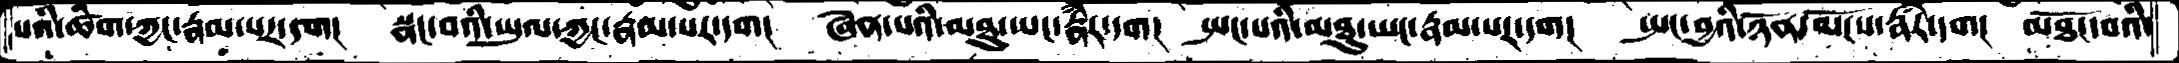པའི་ཚིག་ཀྱང་རྣམ་པར་དག།  སྣང་བའི་ཡུལ་ཀྱང་རྣམ་པར་དག། ཞེན་པའི་མཐུ་ཡང་རྣཾར་དག།  སྤང་པའི་མཐུ་ཡང་རྣམ་པར་དག།  སྤང་བྱའི་ཉོན་མོངས་རྣཾར་དག། མཐོང་བའི་
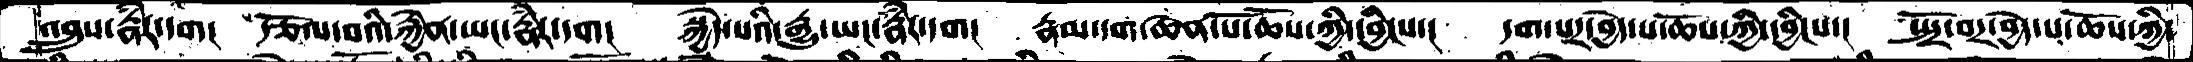འབྲུས་རྣཾར་དག།  རྩོལ་བའི་རྐྱེན་ཡང་རྣཾར་དག།  སྐྱེད་པའི་རྒྱུ་ཡང་རྣཾར་དག།  རྣམ་དག་ཆེན་པོ་ཆོས་ཀྱི་དབྱིངས་།  དག་པར་བྱེད་པ་ཆོས་ཀྱི་དབྱིངས་།  སྤྲོ་བར་བྱེད་པ་ཆོས་ཀྱི་
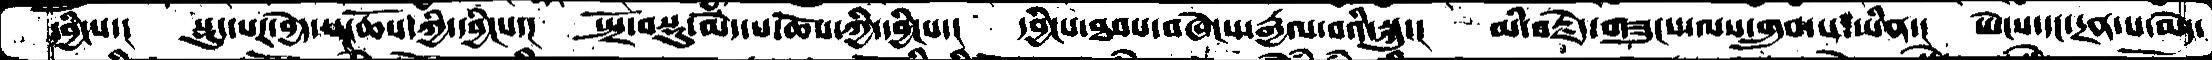དབྱིངས་།  སྡུད་པར་བྱེད་པ་ཆོས་ཀྱི་དབྱིངས་།  སྤྲོ་བསྡུ་མེད་པ་ཆོས་ཀྱི་དབྱིངས་།  དབྱིངས་ཐབས་བཞེངས་རྒྱལ་བའི་སྐུ་།  མི་བརྗོད་གཟུངས་ལས་གྲུབ་པ་ཡིན་།  ཡེངས་དང་དྲན་པ་མེད་
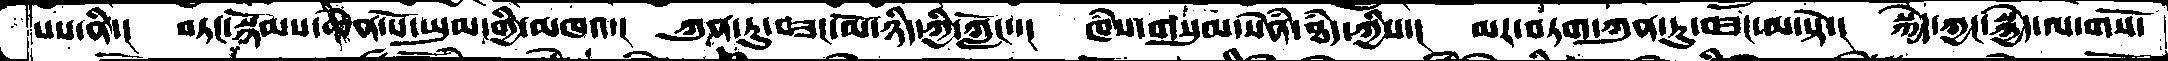པས་ནི་།  བཏང་སྙོམས་ཆེན་པོ་ཡུམ་གྱི་མཁའ་།  ཀུན་ཏུ་བཟང་མོ་ཉིད་ཀྱི་ཀློང་་།  ཁཾས་གསུམ་སེཾན་ཐཾད་ཀྱིས་།  མར་བཏག་ཀུན་ཏུ་བཟང་ལ་སྟེ་།  སྐྱེད་ཀྱང་སྐྱེད་ལ་གསོ་
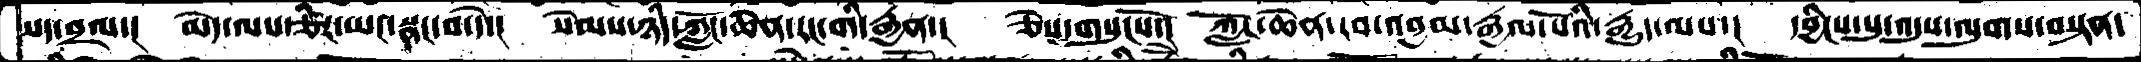སད་བྲལ་།  མེད་ལས་ཅིར་ཡང་སྣང་བ་དེ་།  སེམས་ཉིད་ཀློང་ཆེན་རང་གི་རྒྱན་།  ཅེས་གསུངསོ་།  ཀློང་ཆེན་རབ་འབྱམ་རྒྱལ་པོའི་རྒྱུད་ལས་།  དབྱིངས་སུ་འདུས་ལུགས་བསྟན་
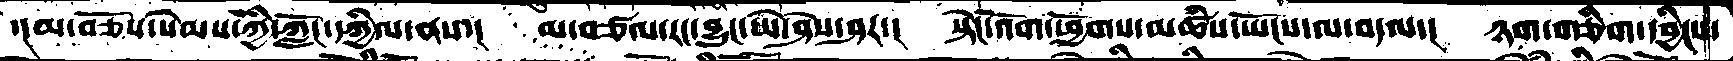་།མ་བཅོས་སེམས་ཀྱི་ཀློང་དཀྱིལ་ནས་།  མ་བཙལ་རང་བྱུང་ཡེ་ཤེས་ཤར་།  སྟེང་འོག་ཕྱོགས་མཚཾས་ཡོངས་ལ་བདལ་།  ཉག་གཅིག་དབྱིངས་
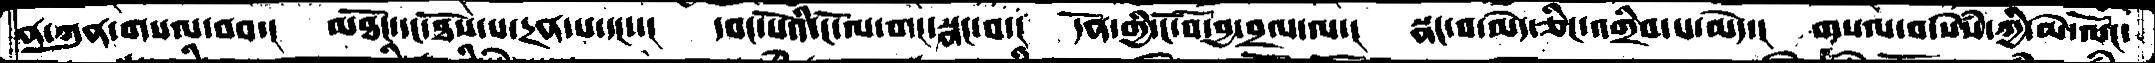ན་ཀུན་གསལ་བབ་།  མཐོང་དང་ཐོས་པ་དྲན་པ་དང་་།  དབང་པོའི་ངོ་ལ་གང་སྣང་བ་།  དོན་གྱི་ངོ་བོ་བྱ་བྲལ་ལ་།   སྣང་བ་མེད་ཅིང་འགྲིབ་པ་མེད་།  གསལ་བ་སེཾས་ཀྱི་མེ་ལོང་
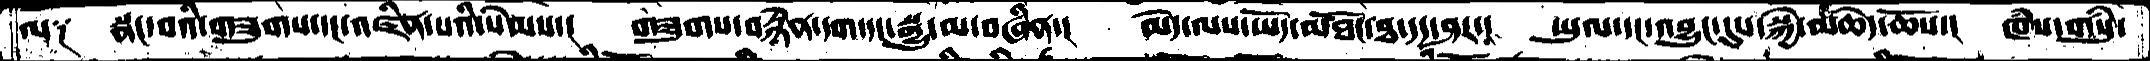ལ༑  སྣང་བའི་གཟུགས་དང་འཛིན་པའི་སེམས་།  གཟུགས་བརྙེན་དག་དང་སྒྱུ་མ་བཞིན་།  མེད་ལས་ཡོད་མཐོང་ཐ་དད་ཤར་།  ཡུལ་དང་འབྱུང་དུས་སྐྱེ་མཆེད་ཆོས་།  ཁཾས་གསུཾ་
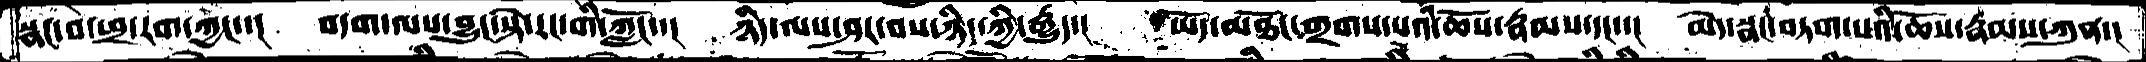སྣང་བ་ཕྲ་རག་ཀྱང་་།  བདག་ལས་བྱུང་སྟེ་རང་གི་ཀློང་་།  ཉིད་ལས་ཤར་བས་ཉིད་ཀྱི་རྒྱུད་།  ཡོད་མཐོང་གྲགས་པའི་ཆོས་རྣམས་དང་་།  མེད་སྣང་བཏག་པའི་ཆོས་རྣམས་ཀུན་།
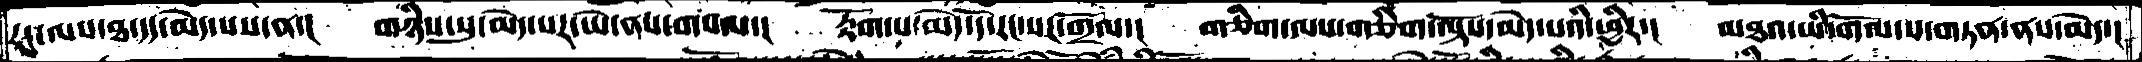རང་ལས་ཐ་དད་མེད་པས་ན་།  གཉིས་སུ་མེད་པར་ཡེ་ནས་གསལ་།  རྟོག་པ་མེད་དོ་རང་སར་གྲོལ་།  གཅིག་ལས་གཅིག་ལྟོས་མེད་པའི་ཕྱིར་།  མཐའ་ཡི་གོལ་ས་གཏན་ནས་མེད་།
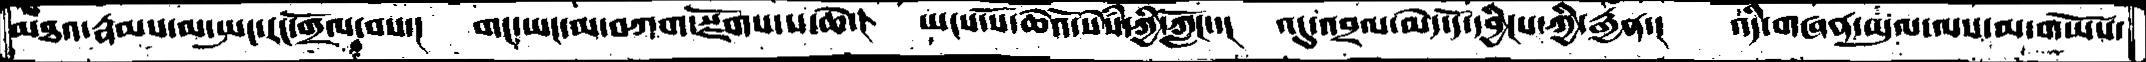མཐའ་རྣམས་མ་སྤང་རང་གྲོལ་བས་།  གང་ཡང་མ་བཀག་སྫོགས་པ་ཆེ་།  ཡངས་པོ་ཆེའོ་སེཾས་ཀྱི་ཀློང་་།  འདུ་བྲལ་མེད་དོ་དབྱིངས་ཀྱི་རྒྱན་།  འདི་གཞན་ཡུལ་ལས་མ་གཡོས་
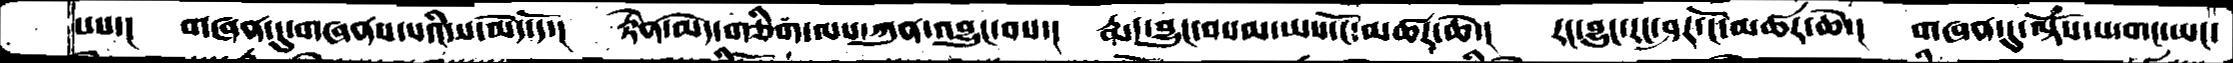པས་།  གཞན་དུ་གཞནས་པའི་ས་མེད་དོ་།  རྟེན་མེད་གཅིག་ལས་ཀུན་འབྱུང་བས་།  རྨད་བྱུང་བསམ་ཡས་ངོ་མཚར་ཆེ་།  རང་བྱུང་རང་ཤར་ངོ་མཚར་ཆེ་།  གཞན་དུ་ལྟོས་པ་གང་ཡང་
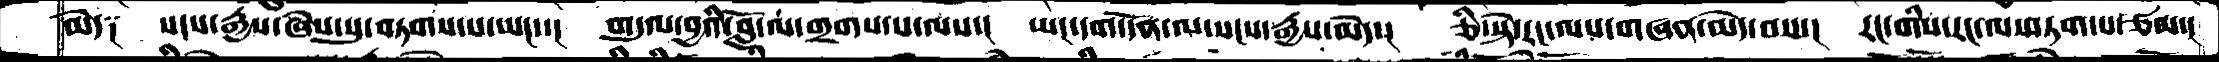མེད་༑ སངས་རྒྱས་ཞེས་སུ་བཏགས་པ་ཡང་་།  གདུལ་བྱའི་བློ་ལ་གྲགས་པ་ལས་།  ཡང་དག་དོན་ལ་སངས་རྒྱས་མེད་།  ཅི་སྟེ་རང་ལས་གཞན་མེད་བས་།  རང་གིས་རང་ལ་གཏག་པ་ཙམ་།
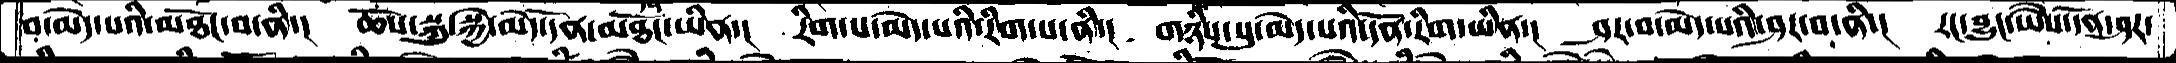བ་མེད་པའི་མཐོང་བ་ནི་།  ཆོས་སྐུ་སྐྱེ་མེད་དོན་མཐོང་ཡིན་།  རིག་པ་མེད་པའི་རིག་པ་ནི་།  གཉིས་སུ་མེད་པའི་དོན་རིག་ཡིན་།  ཤར་བ་མེད་པའི་ཤར་བ་ནི་།   རང་བྱུང་ཡཻས་དོན་ཤར་
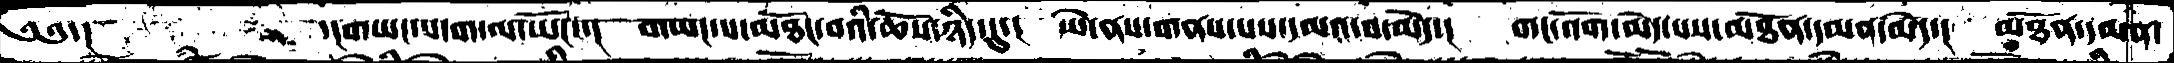༄༅་།       ་།གཡང་ས་ག་ལ་ཡོང་་།  གཡང་ས་མཐོང་བའི་ཆོས་ཉིད་དུ་།  ཡེ་ནས་གནས་པས་དམའ་བ་མེད་།  གང་འོག་མེད་པས་མཐོན་དམན་མེད་།  མཐོན་དམན་
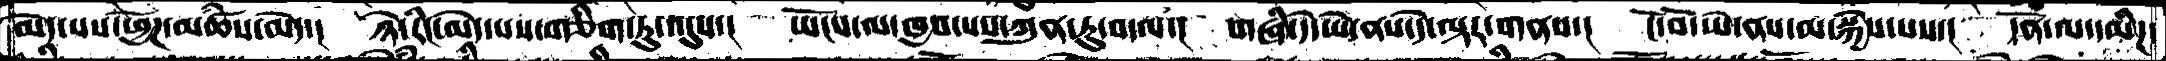མེད་པས་ཕྱོཌ་མཚཾས་མེད་།  ཉེ་རིང་མེད་པས་གཅིག་ཏུ་འདུས་།  ཡོངས་ལ་ཁྱབ་པས་ཀུན་ཏུ་བདལ་།  གཞི་དེ་ཡེ་ནས་དེ་ལྟར་གནས་།  ངོ་བོ་ཡེ་ནས་མ་སྐྱེས་པས་།  དོན་ལ་དམིཌ་
